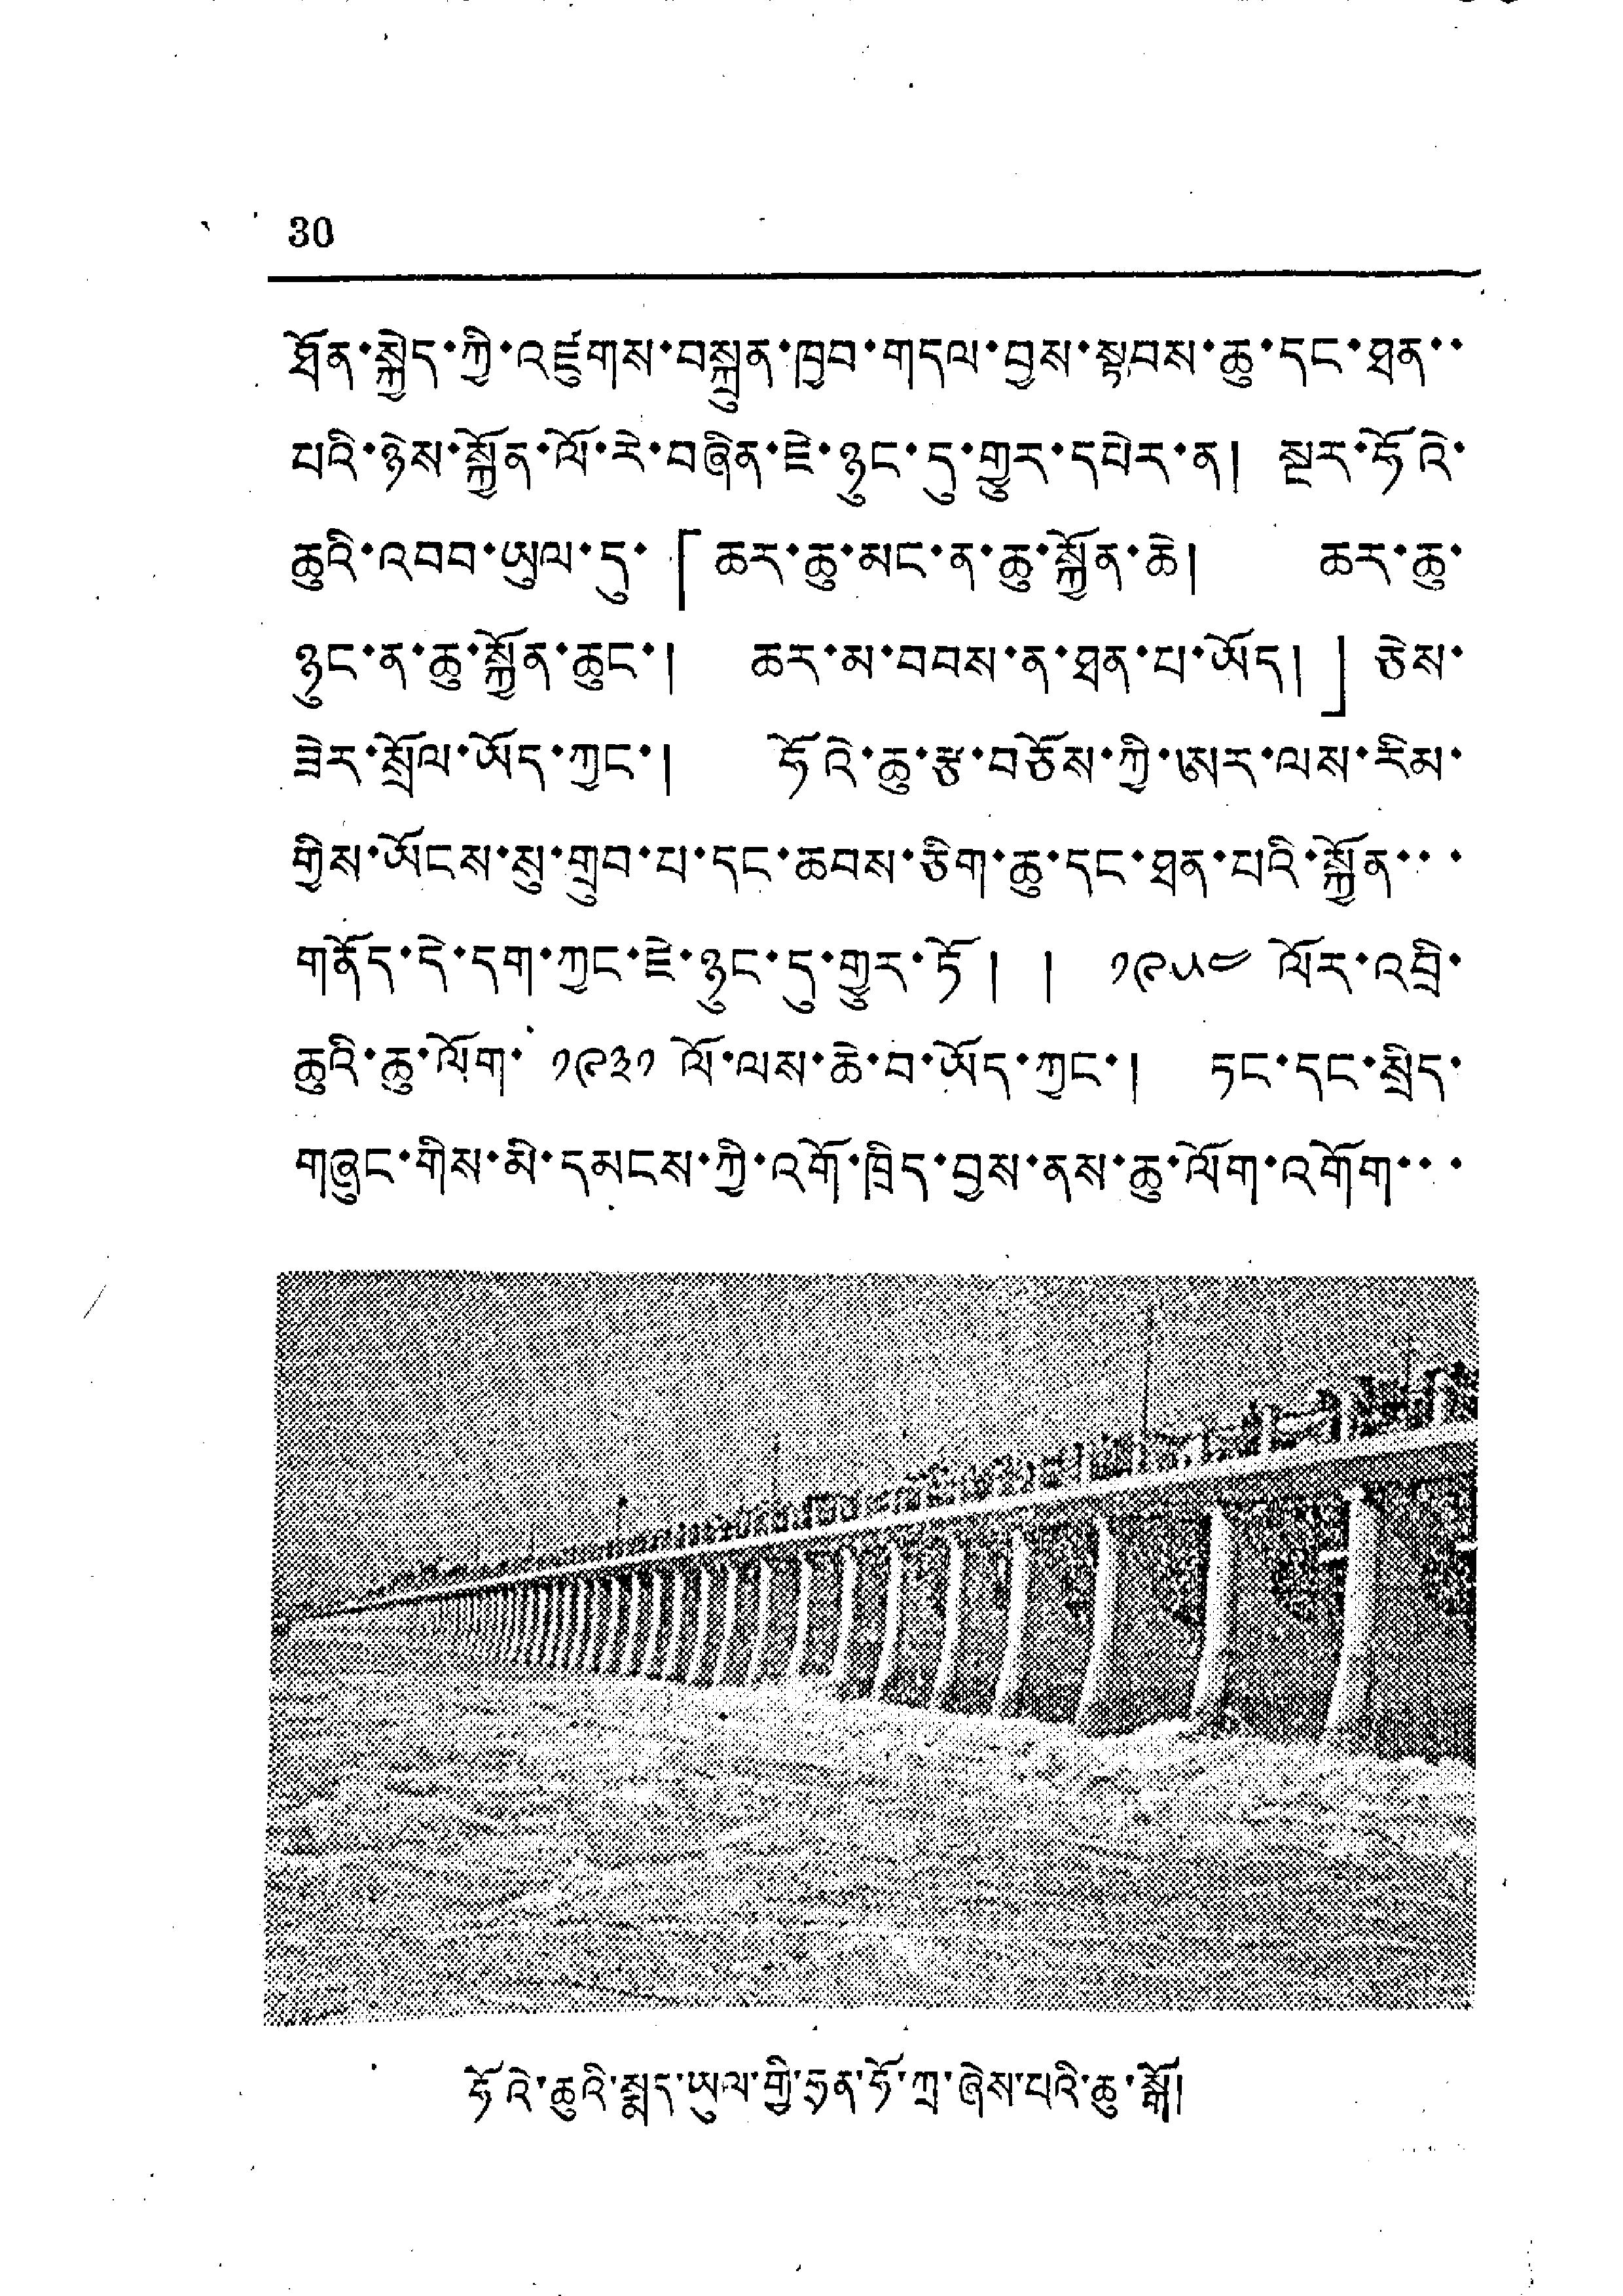30
ཐོན་སྐྱེད་ཀྱི་འཛུགས་བསྐྲུན་ཁྱབ་གདལ་བྱས་སྟབས་ཆུ་དང་ཐན་་
པའི་ཉེས་སྐྱོན་ལོ་རེ་བཞིན་ཇེ་ཉུང་དུ་གྱུར་དཔེར་ན། སྔར་ཧོའེ་
ཆུའི་འབབ་ཡུལ་དུ་「ཆར་ཆུ་མང་ན་ཆུ་སྐྱོན་ཆེ། ཆར་ཆུ་
ཉུང་ན་ཆུ་སྐྱོན་ཆུང་། ཆར་མ་བབས་ན་ཐན་པ་ཡོད།」ཅེས་
ཟེར་སྲོལ་ཡོད་ཀྱང་། ཧོའེ་ཆུ་རྩ་བཅོས་ཀྱི་ཨར་ལས་རིམ་
གྱིས་ཡོངས་སུ་གྲུབ་པ་དང་ཆབས་ཅིག་ཆུ་དང་ཐན་པའི་སྐྱོན་་་
གནོད་དེ་དག་ཀྱང་ཇེ་ཉུང་དུ་གྱུར་ཏོ ། ། ༡༩༥༤ ལོར་འབྲི་
ཆུའི་ཆུ་ལོག་ ༡༩༣༡ ལོ་ལས་ཆེ་བ་ཡོད་ཀྱང་། ཏང་དང་སྲིད་
གཞུང་གིས་མི་དམངས་ཀྱི་འགོ་ཁྲིད་བྱས་ནས་ཆུ་ལོག་འགོག་་་
ཧོའེ་ཆུའི་སྨད་ཡུལ་གྱི་ཧྲན་ཧོ་ཀྲ་ཞེས་པའི་ཆུ་སྒོ་
